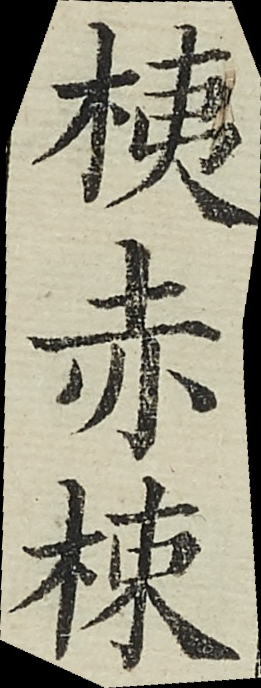桋赤梀
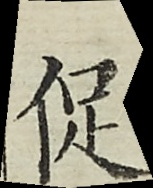促
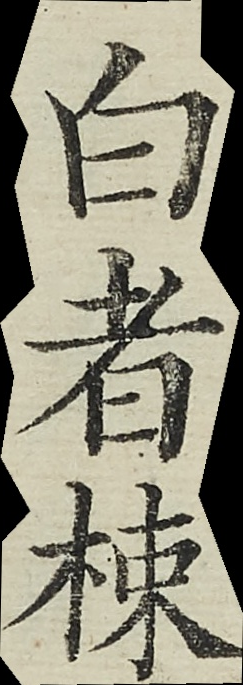白者梀
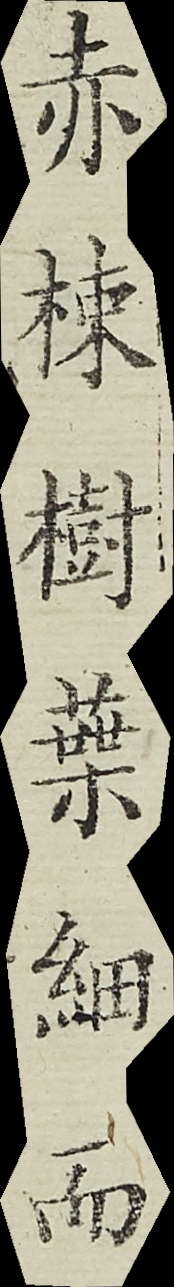赤梀樹葉細而
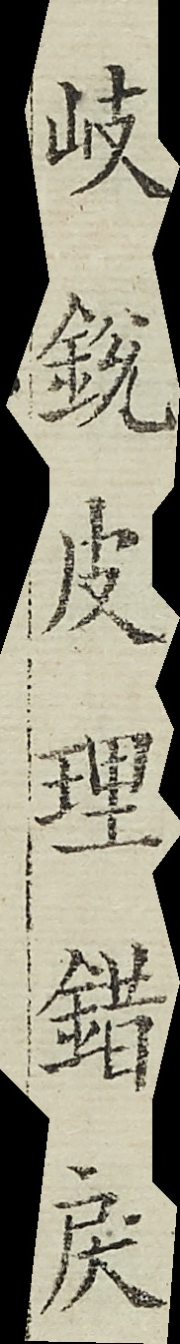岐銳皮理錯戾
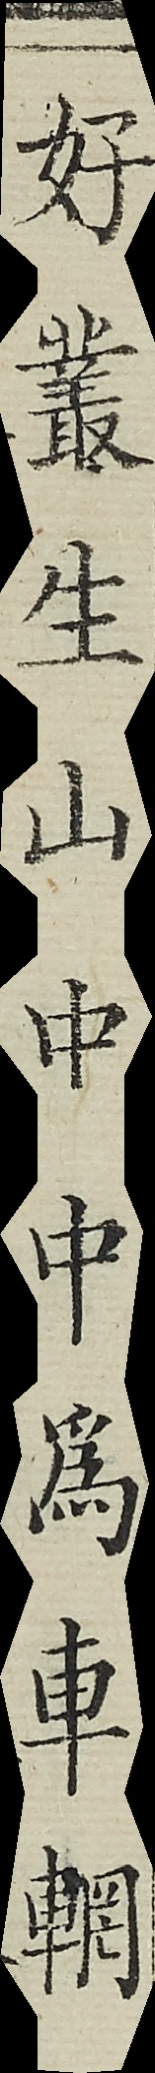好叢生山中中為車輞
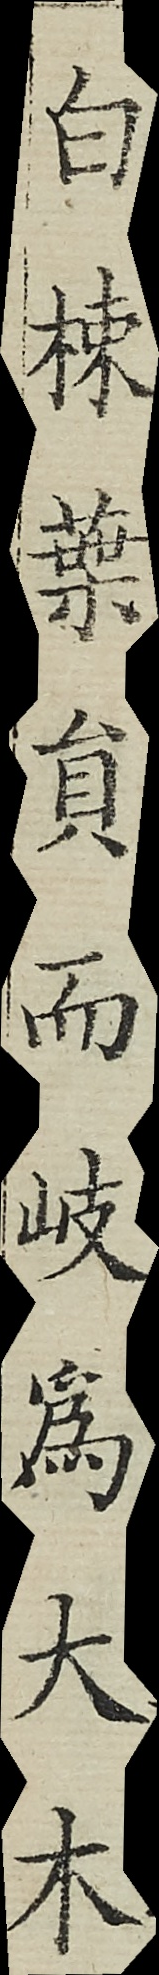白梀葉貟而岐為大木
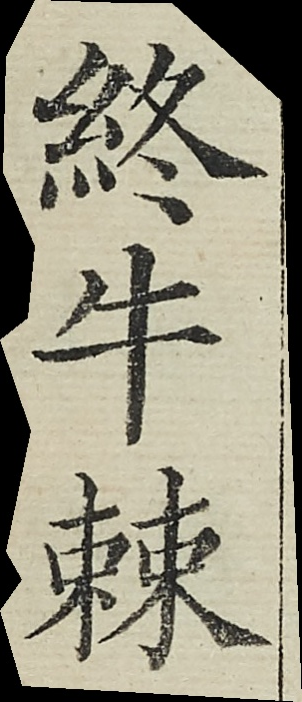終牛棘
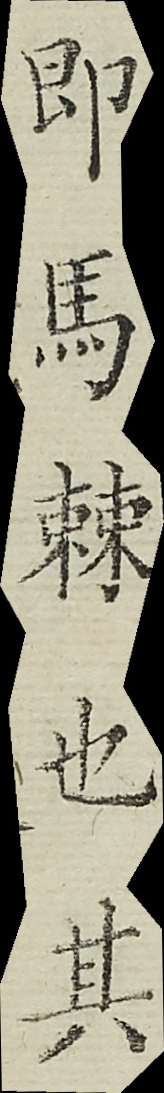即馬棘也其
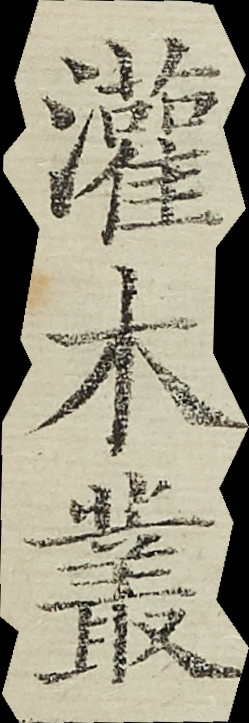灌木叢
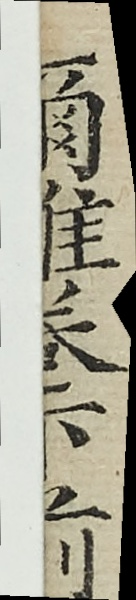爾雅卷下前
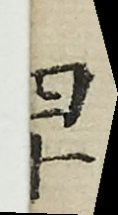四十
